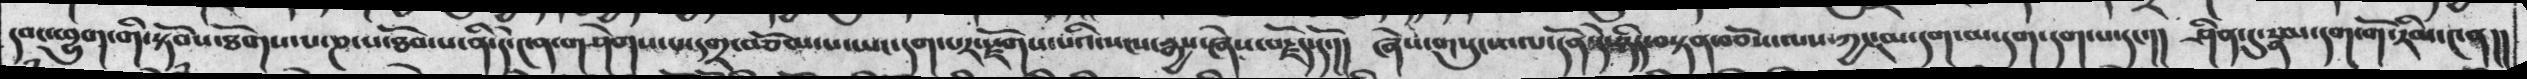དབང་ཕྱུག་གི་སྟོབས་ཐོགས་པ་ཎ་པ་ཐོབ་པ་ནི་དེ་༤ན་གཤེགས་པ་དགྲ་བཅོམ་པ་ཡང་དག་པར་སྫོགས་པའི་སངས་རྒྱས་ཞེས་བརྗོད་དོ་།། ཞེས་གསུངས་ལ་དོན་དེ་ཉིད་བསྟན་བཅོས་ལས་ཀྱང་མ་དག་མ་དག་དག་པ་དང་།། ཤིན་དུ་རྣམ་དག་གོ་རིམ་༤ན།།
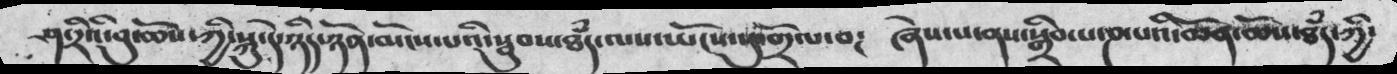ཤ་རིའི་བུ་ཆོས་ཀྱི་སྐུ་དེ་ཉིད་ཉོན་མོངས་པའི་སྦུབས་ཐཾད་ལས་ཡོངས་སུ་གྲོལ་བ༴  ཞེས་པ་ནས་སྒྲིབ་པ་ཎ་པའི་ཆོན་ཆེས་ཐཾད་ཀྱི་
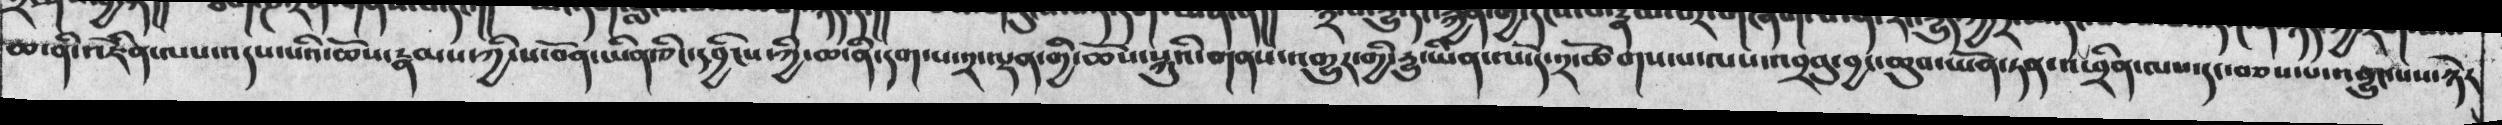མ་ནི་འཇིནལས་འདས་པའི་ཆོས་རྣམས་ཀྱི་ས་བོན་ཡིན་ཅིང་དབྱིངས་ཀྱི་ཆ་ནི་དག་པ་༢་ལྡན་གྱི་ཆོས་སྐུའི་གནས་འགྱུར་གྱི་རྒྱུ་ཡིན་ལ་དེ་༢་ཚོགས་པ་ལས་འབྲབུ་བྱང་ཆུབ་ཡོན་ཏན་འཕྲིན་ལས་དང་བཅས་པ་འབྱུང་པས་ཉེར
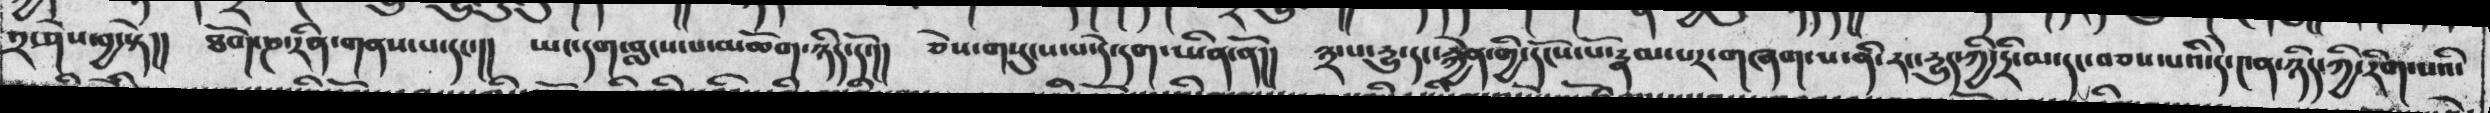༢་ཤེས་བྱ་སྟེ།།  ཐོག་ཎ་རིན་གནས་པ་དང་།།  ཡང་དག་བླངས་པ་མཆོག་ཉིད་དོ་།།  ཅེས་གསུངས་པ་དེ་དག་ཡིན་ནོ།། ༣་པ་རྒྱུ་དང་རྐྱེན་གྱི་དངོས་པོ་རྣམ་པར་གཞག་པ་ནི་རང་རྒྱུད་ཀྱི་དྲི་མ་དང་བཅས་པའི་དེ་༤ན་ཉིད་ཀྱི་རིག་པའི་
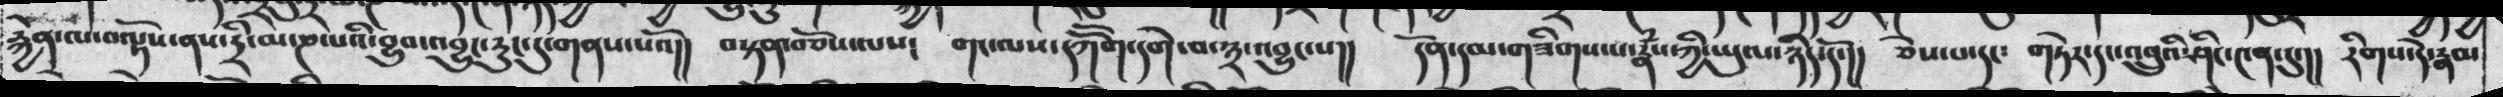རྐྱེན་ལ་བལྟོས་ནས་དྲི་མ་ཎ་པའི་བྱུབ་འབྱུང་རུང་དུ་གནས་པའོ།།  བསྟན་བཅོས་ལས།   གང་ལས་དཀོོག་དགེ་བ་༣་འབྱུང་པ།།  དོན་དམ་གཟིགས་པ་རྣཾས་ཀྱི་ཡུལ་ཉིད་དོ་།།  ཅེས་པ་དང་  གཏེར་དང་འབྲུའི་ཤིང་༩ན་དུ་།།  རིགས་དེ་རྣམ
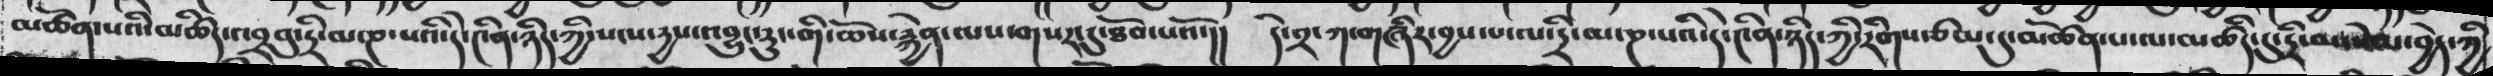མཚོན་པའི་མཚིད་འབྲབུ་དྲི་མ་ཎ་པའི་དེ་༩ིན་ཉིད་ཀྱི་སངས་དྱས་འབྱུང་རུང་གི་ཆོས་རྐྱེན་ལས་གསལ་དུ་ཐོབ་པའོ་།།  དེ་༢་ཀ་གཞིར་བྱས་པ་ལ་དྲི་མ་ཎ་པའི་དེ་༩ིན་ཉིད་ཀྱི་རིགས་ཙམ་དུ་མཚོན་པ་ལ་མཚིད་དུ་དྲི་མ་སེལ་བྱེད་ཀྱི
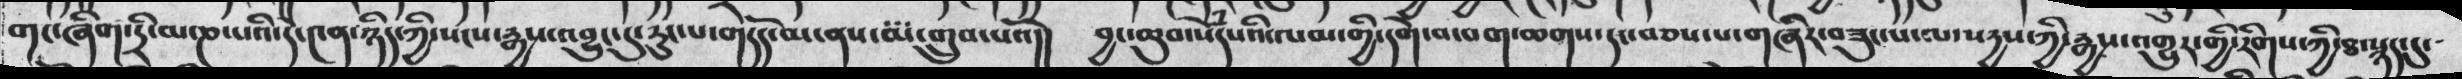གང་ཞིག་དྲི་མ་ཎ་པའི་དེ་༩ན་ཉིད་ཀྱི་སངས་རྒྱས་འབྱུང་དུ་རུང་པ་གདོད་མ་ནས་མ་གྲུབ་པའོ།།  བྱང་ཆུབ་སེཾདཔའི་ལམ་གྱི་དགེ་བ་བག་ཆགས་དང་བཅས་པ་གཞིར་བཟུང་པ་ལ་སདྱས་ཀྱི་རྒྱས་འགྱུར་གྱི་རིགས་ཀྱི་ཐ་སྙད་དུ་
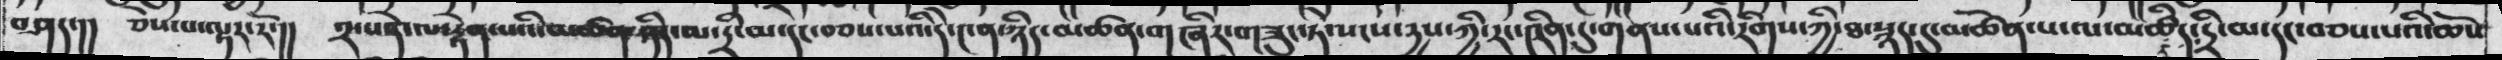བཤདད་།།  ཅེས་པ་ལྟར་རོ་།།  ༢་པན་ལ་རྟེན་ཚན་ཉིད་མ་དྲི་མ་དང་བཅས་པའི་དེ་ཉིད་མཚན་གཞིར་གཟུང་ཏེ་སངས་དྱས་ཀྱི་རང་༩ིན་དུ་གནས་པའི་རིགས་ཀྱི་ཐ་སྙད་དུ་མཚོན་པ་ལ་མཚིད་དྲི་མ་དང་བཅས་པའི་ཆོས
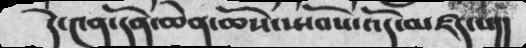དེ་༤ན་དོན་ཆེན་ཆོས་སྤོབས་འདོ་མཛད་པ།།
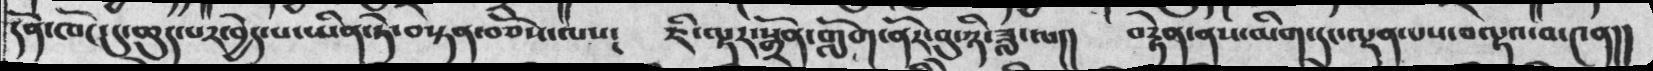དོན་ཁོང་དུ་ཆུད་པར་བྱེད་པ་ཡིན་ཏེ་བསྟན་བཅོས་ལས།   ཇི་ལྟར་སྒྲོན་གློག་ནོར་བུ་ཉི་ཟླ་ལ།།  བརྟེན་ནས་མིག་དང་ལྡན་པས་བལྟའ་བ་༩ན།།
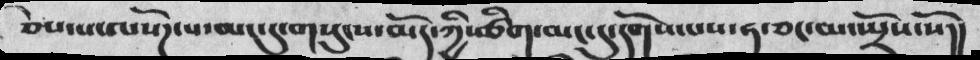ཅེས་པ་ལ་སོཌ་པ་མང་དུ་གསུངས་མོད་ཀྱི་ཚིག་མང་དུ་དགོས་པས་ཧ་ཅང་མ་སྤྲོས་སོ།།
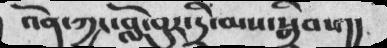འོན་ཀྱང་བློ་བུར་དྲི་མས་སྒྲིབས།།
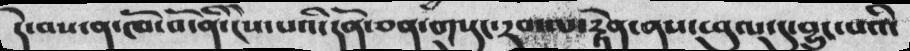དེ་བས་ན་ཁོ་བོ་ནི་ངེ་པའི་དོན་ཅན་གསུང་རབ་ལ་རྟེན་ནས་ཕུལ་དུ་བྱུང་པའི
